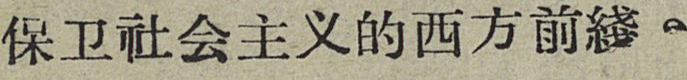保卫社会主义的西方前綫。
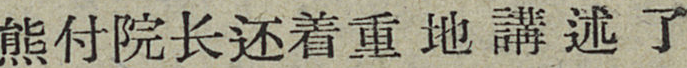熊付院长还着重地講述了
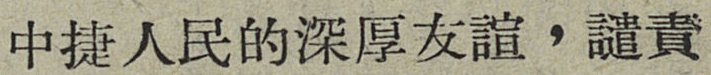中捷人民的深厚友誼，譴責
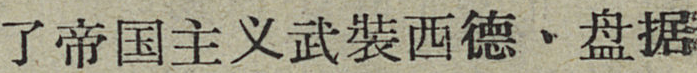了帝国主义武装西德、盘踞
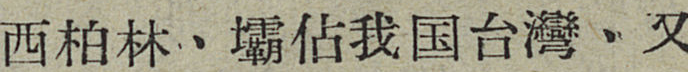西柏林、壩佔我国台灣、又
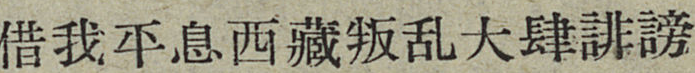借我平息西藏叛乱大肆誹謗
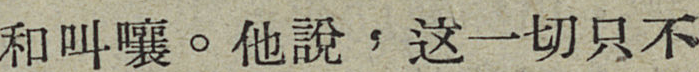和叫嚷。他說，这一切只不
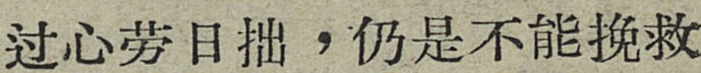国心劳日拙，仍是不能挽救
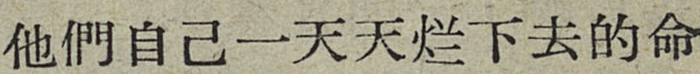他們自己一天天烂下去的命
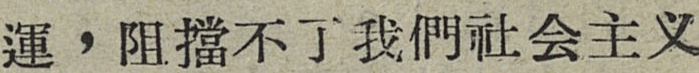運，阻擋不了我們社会主义
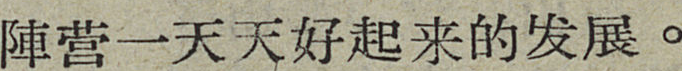陣营一天天好起来的发展。
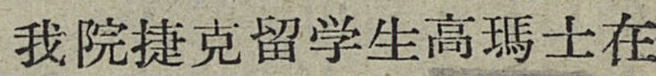我院捷克留学生高瑪士在
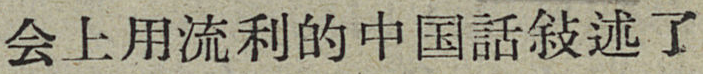会上用流利的中国話敍述了
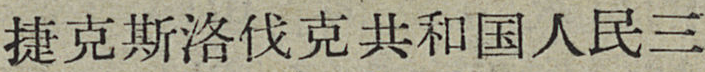捷克斯洛伐克共和国人民三
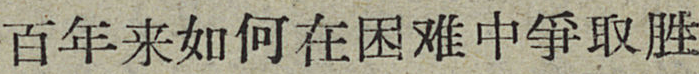百年来如何在困难中爭取胜
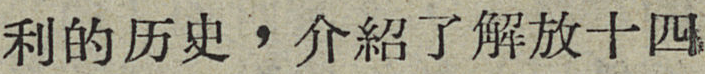利的历史，介紹了解放十四
